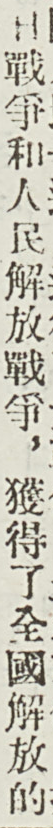日戰爭和人民解放戰爭，獲得了全國解放的
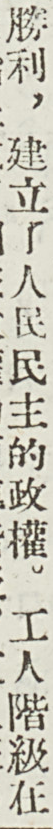勝利，建立了人民民主的政權。工人階級在
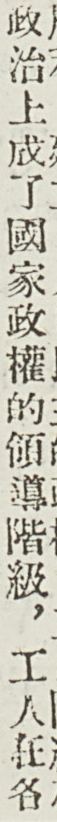政治上成了國家政權的領導階級，工人在各
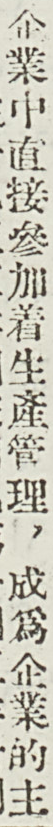企業中直接參加着生產管理，成爲企業的主
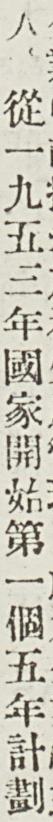人，從一九五三年國家開始第一個五年計劃
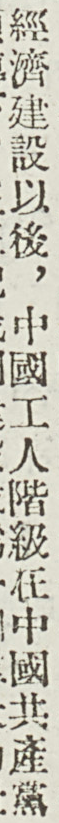經濟建設以後，中國工人階級在中國共產黨
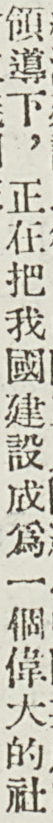領導下，正在把我國建設成爲一個偉大的社
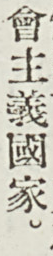會主義國家。
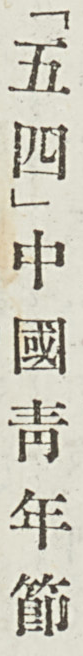「五 四」中 國 青 年 節
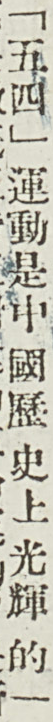「五四」運動是中國歷史上光輝的一
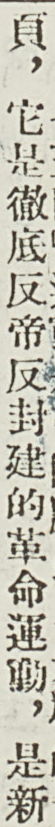頁，它是徹底反帝反封建的革命運動，是新
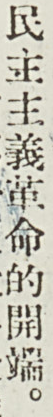民主主義革命的開端。
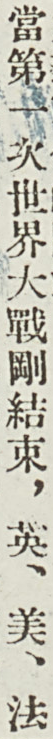當第一次世界大戰剛結束，英、美、法
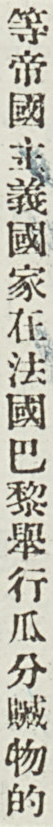等帝國主義國家在法國巴黎舉行瓜分贓物的
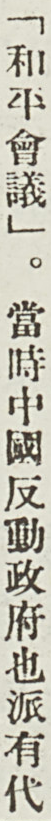「和平會議」。當時中國反動政府也派有代
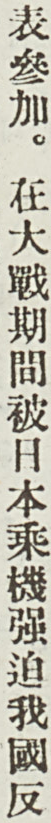表參加。在大戰期間被日本趁機強破我國反
